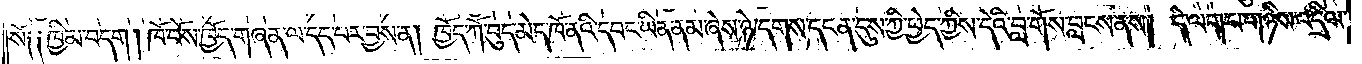སོ༑ ༑ཁྱིམ་བདག། ཁོ་བོས་ཁྱོད་གཞན་ལ་དད་པར་བྱས་ན། ཁྱོད་ཀོ་བུད་མེད་ཁོ་ནའི་དབང་ཡིན་ནམ་ཞེས་ཉེ་དགས་དངན་དུས་ཀྱི་ཕྱེད་ཀྱིས་དེའི་བླ་གོས་བླངས་ནས། དེ་ལག་པ་གཉིས་འདྲིལ་
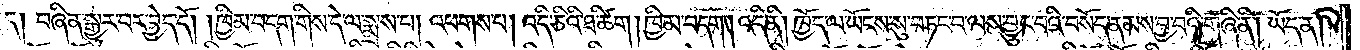ད། བཞིན་སྒྱུར་བར་བྱེད་དོ། །ཁྱིམ་བདག་གིས་དེ་ལ་སྨྲས་པ། འཕགས་པ། འདི་ཅིའི་ཐ་ཚིག །ཁྱིམ་བདག །འདི་ནི། ཁྱོད་ལ་ཡོངས་སུ་བཏང་བ་ལས་བྱུང་བའི་བསོད་ནམས་བྱ་བའི་གཞི་ནི། ཡོད་ན།
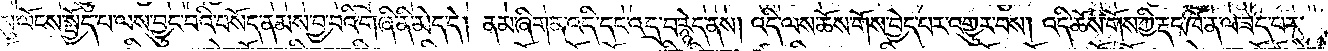སུ་ལོངས་སྤྱོད་པ་ལས་བྱུང་བའི་བསོད་ནམས་བྱ་བའི་གཞི་ནི་མེད་དེ། ནམ་ཞིག་ན་འདི་དང་འདྲ་བ་རྙེད་ནས། འདི་ལས་ཆོས་གོས་བྱེད་པར་འགྱུར་བས། འདི་ཆོས་གོས་ཀྱི་རྡང་ཁོ་ན་ལ་ཟད་པར་
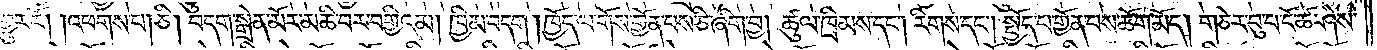འགྱུར་རོ། །འཕགས་པ། ཅི། བདག་སྒྲེན་མོར་མཆི་བར་བགྱིའམ། ཁྱིམ་བདག །ཁྱོད་ལ་གོས་གྱོན་པས་ཅི་ཞིག་བྱ། ཚུལ་ཁྲིམས་དང༌། རིགས་དང༌། སྤྱོད་པ་གྱོན་པས་ཆོག་མོད། གཅེར་བུ་པ་ངོ་ཚ་ཤེས་
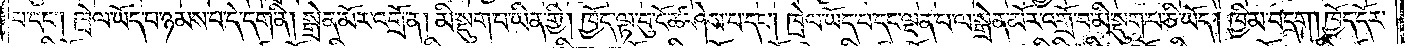པ་དང༌། ཁྲེལ་ཡོད་པ་ཉམས་པ་དེ་དག་ནི། སྒྲེན་མོར་འགྲོ་ན། མི་སྡུག་པ་ཡིན་གྱི། ཁྱོད་ལྟ་བུ་ངོ་ཚ་ཤེས་པ་དང༌། ཁྲེལ་ཡོད་པ་དང་ལྡན་པ་ལ་སྒྲེན་མོར་འགྲོ་བ་མི་སྡུག་པ་ཅི་ཡོད། ཁྱིམ་བདག། ཁྱོད་དོར་
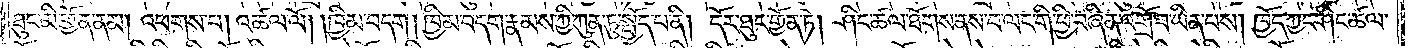ཐུང་མི་གྱོན་ནམ། འཕགས་པ། འཚལ་ལོ། །ཁྱིམ་བདག །ཁྱིམ་བདག་རྣམས་ཀྱི་ཀུན་ཏུ་སྤྱོད་པ་ནི། དོར་ཐུང་གྱོན་ཏེ། ཤིང་ཚལ་ཐོགས་ནས་བ་ལང་གི་ཕྱི་བཞིན་འགྲོ་བ་ཡིན་པས། ཁྱོད་ཀྱང་ཤིང་ཚལ་
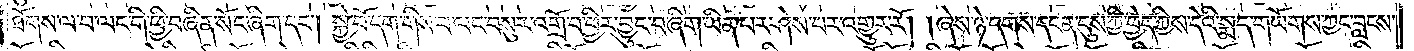ཐོགས་ལ་བ་ལང་གི་ཕྱི་བཞིན་སོང་ཞིག་དང༌། སྐྱེ་བོ་དག་གིས་བ་ལང་བསུར་འགྲོ་བ་ཕྱིར་བྱུང་བ་ཞིག་ཡིན་པར་ཤེས་པར་འགྱུར་རོ། །ཞེས་ཉེ་དགས་དང་ན་དུས་ཀྱི་ཕྱེད་ཀྱིས་དེའི་སྨད་གཡོགས་ཀྱང་བླངས་
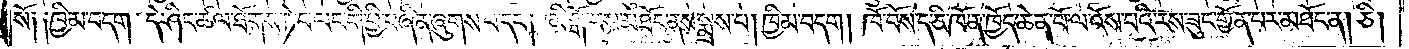སོ༑ ༑ཁྱིམ་བདག་དེ་ཤིང་ཚལ་ཐོགས་ཏེ་བ་ལང་གི་ཕྱི་བཞིན་ཞུགས་པ་དང༌། མི་སྒོ་བས་མཐོང་ནས་སྨྲས་པ། ཁྱིམ་བདག །ཁོ་བོས་ད་ཅི་ཁོ་ན་ཁྱོད་ཆེན་པོ་ལ་འོས་པའི་རས་ཟུང་གྱོན་པར་མཐོང་ན། ཅི།
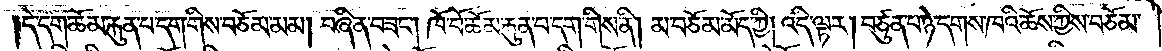དེ་དག་ཆོམ་རྐུན་པ་དག་གིས་བཅོམ་མམ། བཞིན་བཟང༌། ཁོ་བོ་ཆོམ་རྐུན་པ་དག་གིས་ནི། མ་བཅོམ་མོད་ཀྱི། འདི་ལྟར། བཙུན་པ་ཉེ་དགས་ཁའི་ཆོས་ཀྱིས་བཅོམ་
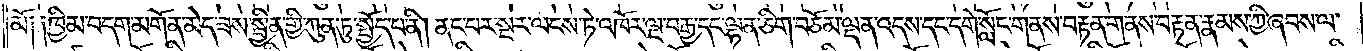མོ༑ ༑ཁྱིམ་བདག་མགོན་མེད་ཟས་སྦྱིན་གྱི་ཀུན་ཏུ་སྤྱོད་པ་ནི། ནང་བར་སྔར་ལངས་ཏེ་འཁོར་ལྔ་བརྒྱ་དང་ལྷན་ཅིག་བཅོམ་ལྡན་འདས་དང་དགེ་སློང་གནས་བརྟན་གནས་བརྟན་རྣམས་ཀྱི་ཞབས་ལ་
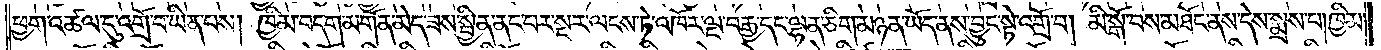ཕྱག་འཚལ་དུ་འགྲོ་བ་ཡིན་པས། ཁྱིམ་བདག་མགོན་མེད་ཟས་སྦྱིན་ནང་པར་སྔར་ལངས་ཏེ་འཁོར་ལྔ་བརྒྱ་དང་ལྷན་ཅིག་མཉན་ཡོད་ནས་བྱུང་སྟེ་འགྲོ་བ། མི་སྒོ་བས་མཐོང་ནས་དེས་སྨྲས་པ། ཁྱིམ་
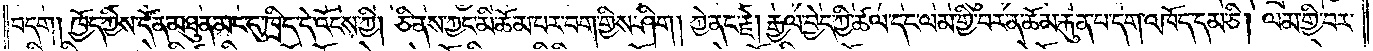བདག །ཁྱོད་ཀྱིས་དོན་མཐུན་མང་དུ་ཁྲིད་དེ་འོངས་ཀྱི། ཅི་ནས་ཀྱང་མི་ཆོམ་པར་བག་གྱིས་ཤིག །ཀྱེ་ནང་རྗེ། རྒྱལ་བྱེད་ཀྱི་ཚལ་དང་ལམ་གྱི་བར་ན་ཆོམ་རྐུན་པ་དག་འཁོད་དམ་ཅི། ལམ་གྱི་བར་
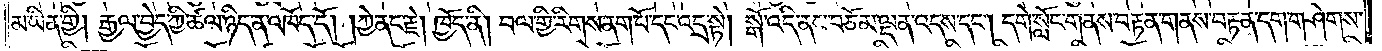མ་ཡིན་གྱི། རྒྱལ་བྱེད་ཀྱི་ཚལ་ཉིད་ན་འཁོད་དོ། །ཀྱེ་ནང་རྗེ། ཁྱོད་ནི། བལ་གྱི་རིགས་ནག་པོ་དང་འདྲ་སྟེ། སྒོ་འདི་ནས་བཅོམ་ལྡན་འདས་དང༌། དགེ་སློང་གནས་བརྟན་གནས་བརྟན་དག་གཤེགས་
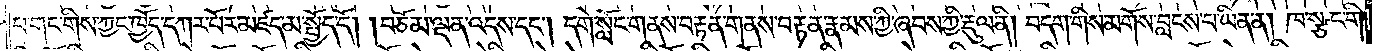པ་གང་གིས་ཀྱང་ཁྱོད་དཀར་པོར་མཛད་མ་སྤྱོད་དོ། །བཅོམ་ལྡན་འདས་དང༌། དགེ་སློང་གནས་བརྟན་གནས་བརྟན་རྣམས་ཀྱི་ཞབས་ཀྱི་རྡུལ་ནི། བདག་གིས་མགོས་བླངས་པ་ཡིན་ན། ཁ་སྩང་གི་
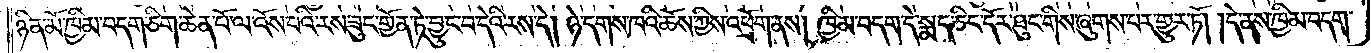ཉིན་མོ་ཁྱིམ་བདག་ཅིག་ཆེན་པོ་ལ་འོས་པའི་རས་ཟུང་གྱོན་ཏེ་བྱུང་བ་དེའི་རས་དེ། ཉེ་དགས་ཁའི་ཆོས་ཀྱིས་འཕྲོག་ནས། ཁྱིམ་བདག་དེ་སྨད་ཅིང་དོར་ཐུང་གིས་ཞུགས་པར་གྱུར་ཏོ། །དེ་ནས་ཁྱིམ་བདག་
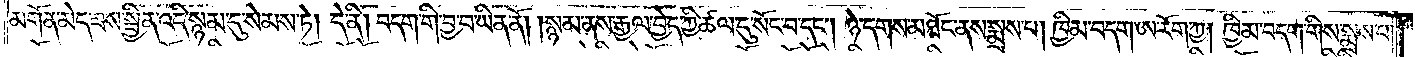མགོན་མེད་ཟས་སྦྱིན་འདི་སྙམ་དུ་སེམས་ཏེ། དེ་ནི། བདག་གི་བྱ་བ་ཡིན་ནོ། །སྙམ་ནས་རྒྱལ་བྱེད་ཀྱི་ཚལ་དུ་སོང་བ་དང༌། ཉེ་དགས་མཐོང་ནས་སྨྲས་པ། ཁྱིམ་བདག་ཨ་རོག་ཀྱ། ཁྱིམ་བདག་གིས་སྨྲས་པ།
